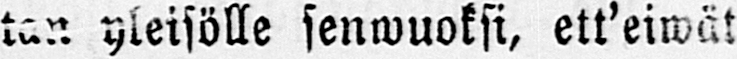tan yleisölle senwuoksi, ett'eiwät erhety,
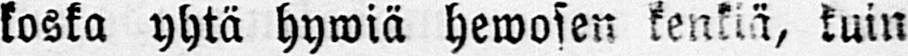koska yhtä hywiä hewosen kenkiä, kuin
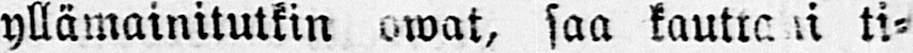yllämainitutkin owat, saa kauttani ti-
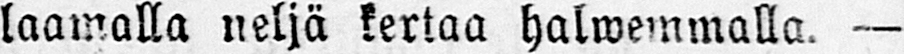laamalla neljä kertaa halwemmalla. —
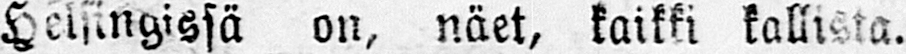Helsingissä on, näet, kaikki kallista.
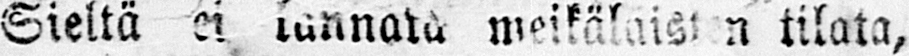Sieltä ei lannata meikälaisten tilata,
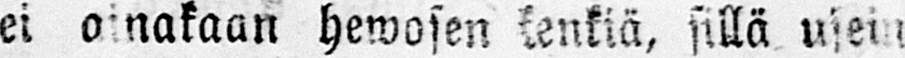ei ainakaan hewosen tknkiä, sillä usein
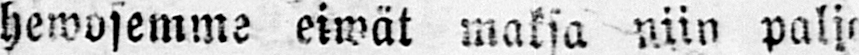hewosemme eiwät maksa niin paljo
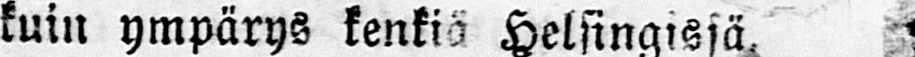kuin ympärys kenkiä Helsingissä
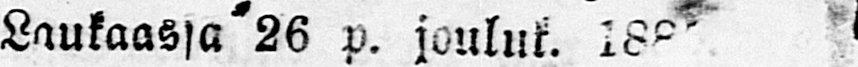Laukaassa 26 p. jouluk. 1885
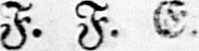F. F. E.
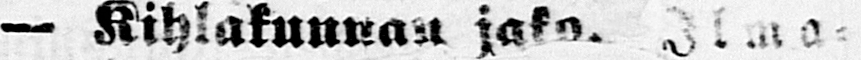— Kihlakunnan jako. Ilma-
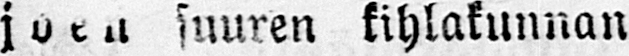j oen suuren kihlakunnan kahtia jako
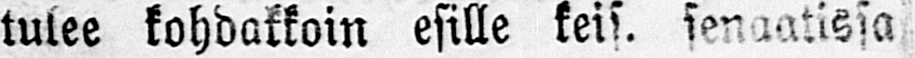tulee kohdakkoin esille keis. senaatissa
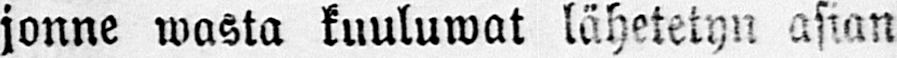jonne wasta kuuluwat lähetetyn asian-
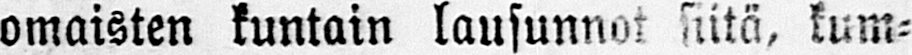omaisten kuntain lausunnot siitä, kum-
